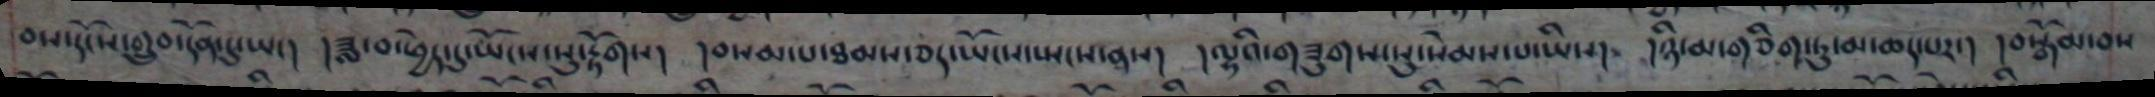བས་དངོས་གྲུབ་དོན་དུ་ཡང། །ཟླ་བ་ཕྱེད་དུ་ཡོངས་སུ་རྟོགས། །བསམ་པ་ཐམས་ཅད་ཡོངས་སྤངས་ནས། །ལྷའི་གཟུགས་སུ་སེམས་པ་ཡིས། །ཉི་མ་གཅིག་ཏུ་མ་ཆད་པར། །བསྒོམ་བས
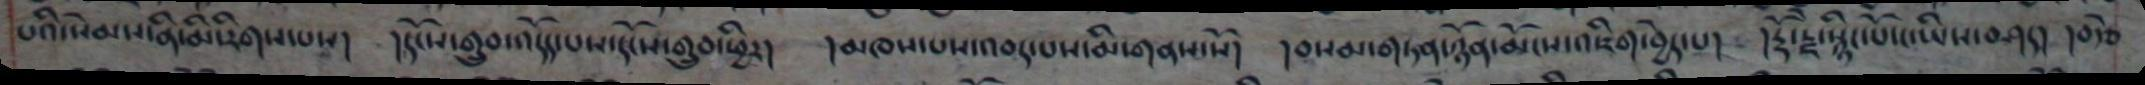པའི་སེམས་ནི་མི་རིགས་པས། །དངོས་གྲུབ་འདོད་པ་དངསོ་གྲུབ་ཕྱིར། །མཁས་པས་འབད་པས་མི་གནས་སོ། །བསམ་གཏན་ཉོན་མོངས་འཇིག་བྱེད་པ། །རྡོ་རྗེ་སྙིང་པོས་ཡིས་བཤད། །བརྩེ
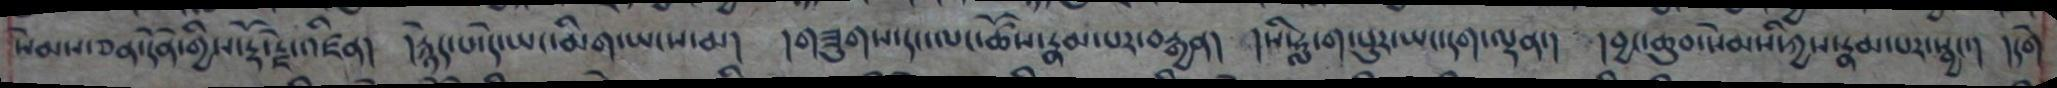སེམས་ཅན་དོན་གྱིས་རྡོ་རྗེ་འཛིན། །རྙེད་པ་དེ་ཡང་མིག་ཡངས་མ། །གཟུགས་དང་ལང་ཚོས་རྣམ་པར་བརྒྱན། །སི་ཧླ་ག་པུར་ཡང་དག་ལྡན། །བྱང་ཆུབ་སེམས་ཀྱིས་རྣམ་པར་སྦྱང་། །དགེ
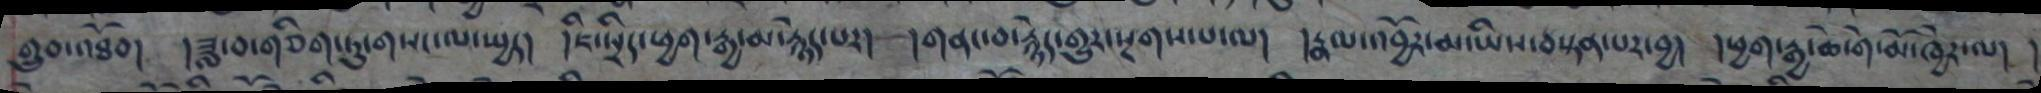གྲུབ་འཐོབ། །ཟླ་བ་གཅིག་ཏུ་གསང་ལ་སྤྱད། །ཇི་སྲིད་ཕྱག་རྒཡ་མ་རྙེད་པར། །གནང་བ་རྙེད་གྱུར་སྔགས་པ་ལ། །རྣལ་འབྱོར་མ་ཡིས་བསྟན་པར་བྱ། །ཕྱག་རྒྱ་ཆེ་གེ་མོ་ཁྱེར་ལ། །
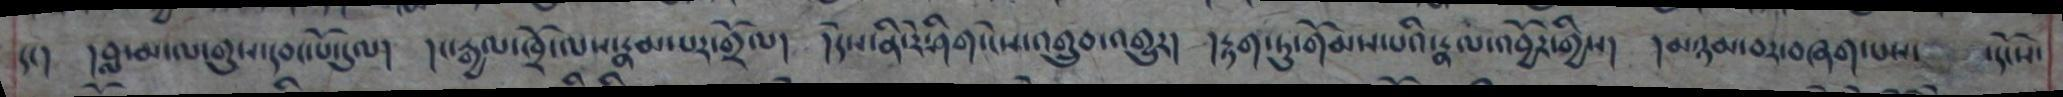དང། །བླ་མ་ལ་གུས་དབང་པོ་དུལ། །ང་རྒྱལ་ཁྲོ་ལས་རྣམ་པར་གྲོལ། །དེས་ནི་རེ་ཤིག་ངེས་འགྲུབ་འགྱུར། །རྟག་ཏུ་གོམས་པའི་རྣལ་འབྱོར་གྱིས། །མཉམ་བར་བཞག་པས་ ་དངོས་
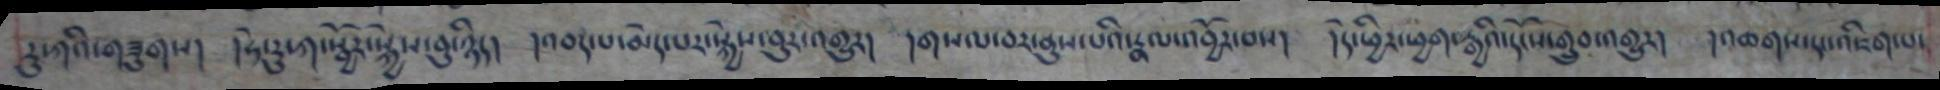རུ་ཀའི་གཟུགས། །ཧེ་རུ་ཀ་སྦྱོར་སྐྱེས་བུ་ཉིད། །འབད་པ་མེད་པར་སྐྱེས་བུར་འགྱུར། །གསལ་བར་ནུས་པའི་རྣལ་འབྱོར་བས། །དེ་ཕྱིར་ཕྱག་རྒྱའི་དངོས་གྲུབ་འགྱུར། །འཆགས་དང་འཇིག་པ་
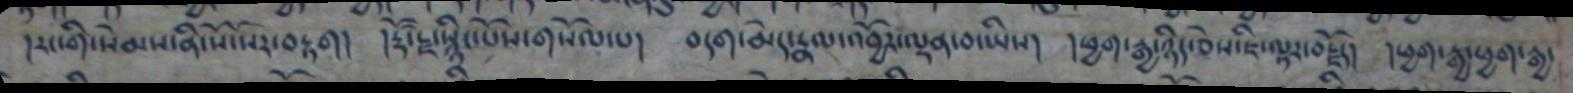།རང་གི་སེམས་ནི་སོ་སོར་བརྟག། །རྡོ་རྗེ་སྙིང་པོས་གསོལ་པ། བདག་མེད་རྣལ་འབྱོར་ལྡན་བ་ཡིས། །ཕྱག་རྒྱ་ཉིད་ཅེས་ཇི་ལྟར་བརྗོད། །ཕྱག་རྒྱ་ཕྱག་རྒྱ་
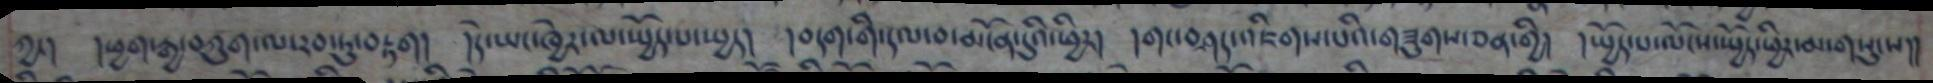ཀྱང། །ཕྱག་རྒྱ་བཀུག་ལ་རབ་ཏུ་བརྟག། །དེ་ཡང་ཁྱེར་ལ་སྤྱོད་པ་སྤྱད། །བདག་གི་དལ་བ་མངོན་དུའི་ཕྱིར། གང་བཤད་འཇིག་པའི་གཟུགས་ཅན་གྱི། །སྤྱོད་པ་ལོངས་སྤྱོད་ཕྱིར་མ་གསུངས།།
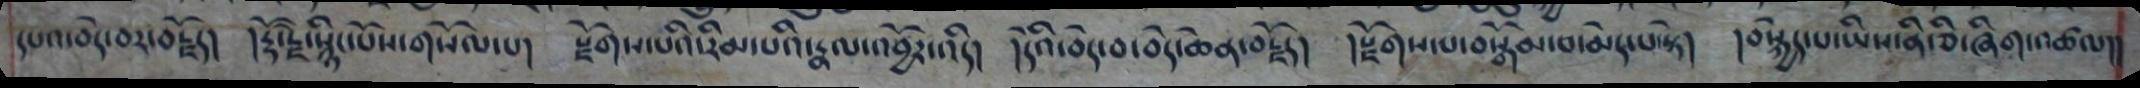དཔའ་བདེ་བ་བརྗོད། །རྡོ་རྗེ་སྙིང་པོས་གསོལ་པ། སྫོགས་པའི་རིམ་པའི་རྣལ་འབྱོར་འདི། །དེའི་བདེ་བ་བདེ་ཆེན་བརྗོད། །སྫོགས་པ་བསྒོམ་པ་མེད་པ་སྟེ། །བསྐྱེད་པ་ཡིས་ནི་ཅི་ཞིག་འཚལ།།
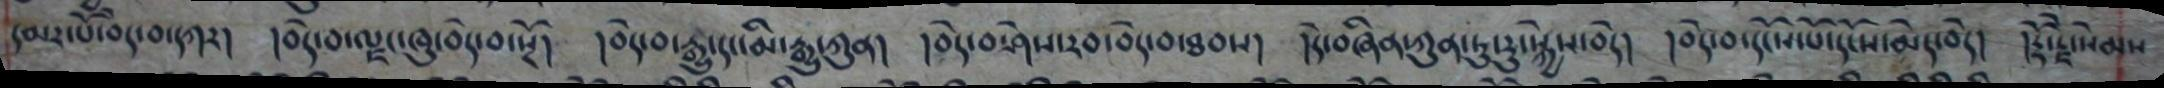དམར་པོ་བདེ་བ་དཀར། །བདེ་བ་ལྗང་ཁུ་བདེ་བ་སྔོ། །བདེ་བ་རྒྱུ་དང་མི་རྒྱུ་ཀུན། །བདེ་བ་ཤེས་རབ་བདེ་བ་ཐབས། །དེ་བཞིན་ཀུན་ཏུ་རུ་སྐྱེས་བདེ། །བདེ་བ་དངོས་པོ་དངོས་མེད་བདེ། །རྡོ་རྗེ་སེམས
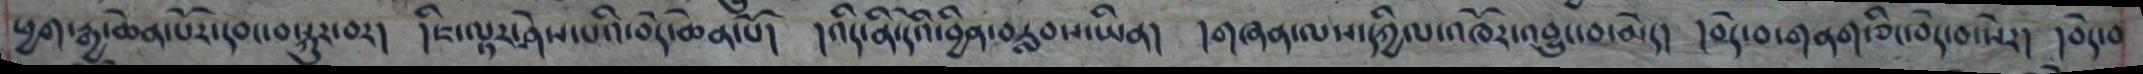ཕྱག་རྒྱ་ཆེན་པོར་དབང་བསྐུར་བར། །ཇི་ལྟར་ཤེས་པའི་བདེ་ཆེན་པོ། །འདི་ནི་དེའི་བྱིན་བརླབས་ཡིན། །གཞན་ལས་དཀྱིལ་འཁོར་འབྱུང་བ་མེད། །བདེ་བ་གནག་ཅིང་བདེ་བ་སེར། །བདེ་བ
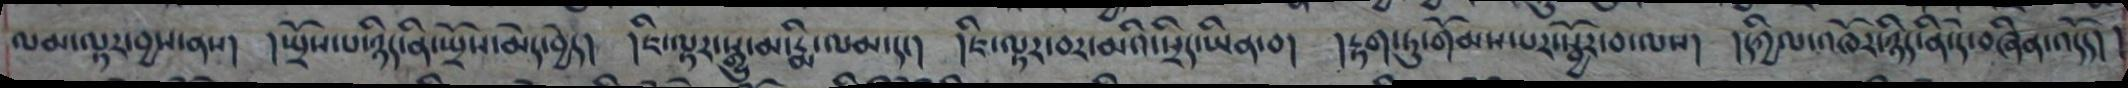ལམ་ལྟར་བྱས་ནས། །སྤྲོས་པ་ཉིད་ནི་སྤྲོས་མེད་བྱེད། །ཇི་ལྟར་སྒྱུ་མ་རྨི་ལམ་དང། །ཇི་ལྟར་བར་མའི་སྲིད་ཡིན་བ། །རྟག་ཏུ་གོམས་པར་སྦྱོར་བ་ལས། །དཀྱིལ་འཁོར་ཉིད་ནི་དེ་བཞིན་འདོད། །
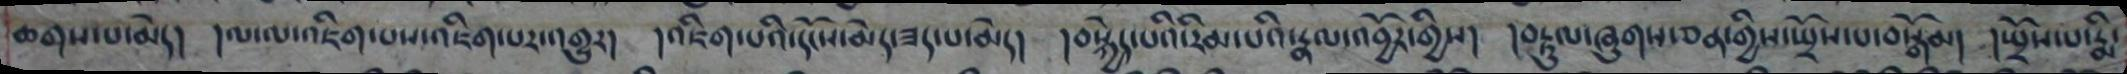ཆགས་པ་མེད། །ལ་ལ་འཇིག་པས་འཇིག་པར་འགྱུར། །འཇིག་པའི་དངོས་མེད་ཟད་པ་མེད། །བསྐྱེད་པའི་རིམ་པའི་རྣལ་འབྱོར་གྱིས། །བརྟུལ་ཞུགས་ཅན་གྱིས་སྤྲོས་པ་བསྒོམ། །སྤྲོས་པ་རྨི་
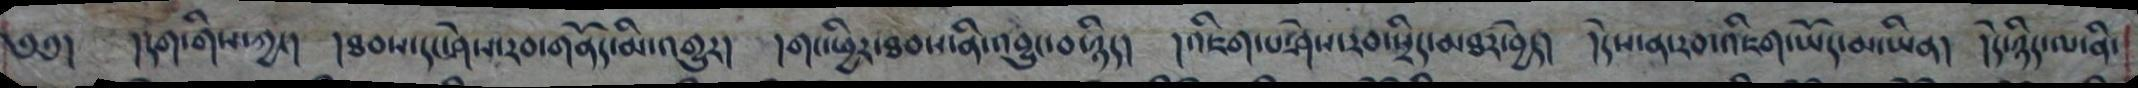༄༅། །དག་གིས་ཀྱང། །ཐབས་དང་ཤེས་རབ་གནོད་མི་འགྱུར། །གང་ཕྱིར་ཐབས་ནི་འབྱུང་བ་ཉིད། །འཇིག་པ་ཤེས་རབ་སྲིད་མཐར་བྱེད། །དེས་ན་རབ་འཇིག་ཡོད་མ་ཡིན། །དེ་ཉིད་ལ་ནི་
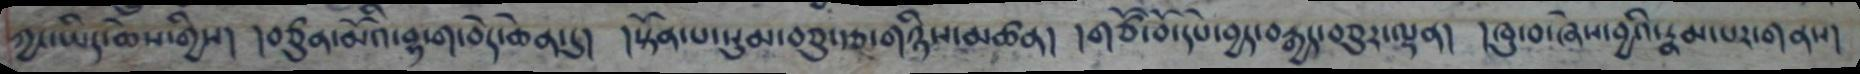ཀྱང་ཡིད་ཆེས་གྱིས། །བཙུན་མོའི་བྷ་ག་བདེ་ཆེན་དུ། །སྟོན་པ་སུམ་བཅུ་རྩ་གཉིས་མཚན། །གཙོ་བོ་དཔེ་བྱད་བརྒྱད་བཅུར་ལྡན། །ཁུ་བ་ཞེས་བྱའི་རྣམ་པར་གནས།
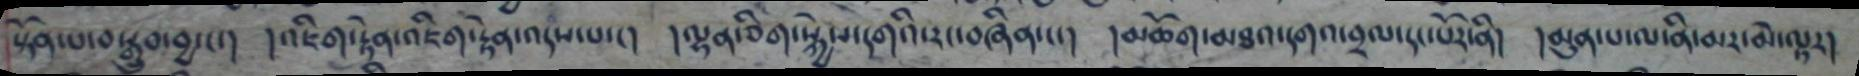སྟོན་པ་བསྒྲུབ་བྱ་ང་། །འཇིག་རྟེན་འཇིག་རྟེན་འདས་པ་ང།  །ལྷན་ཅིག་སྐྱེས་དགའི་རང་བཞིན་ང་། །མཆོག་མཐའ་དགའ་བྲལ་དང་པོར་ནི། །མུན་པ་ལ་ནི་མར་མེ་ལྟར།
